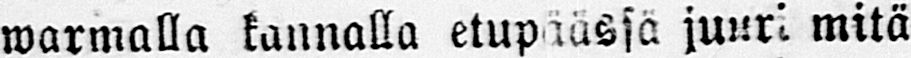warmalla kannalla etupäässä juuri mitä
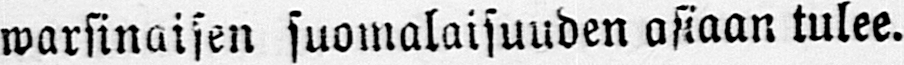warsinaisen suomalaisuuden asiaan tulee.
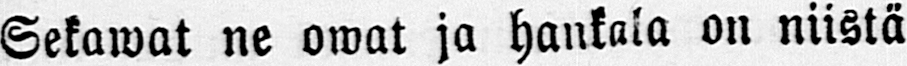Sekawat ne owat ja hankala on niistä
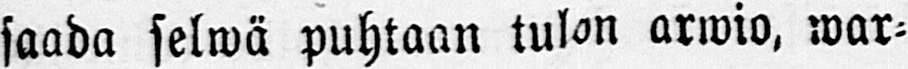saada selwä puhtaan tulon arwio, war-
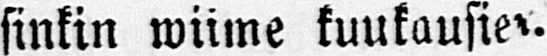sinkin wiime kuukausien.
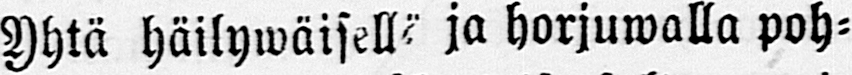Yhtä häilywäisell ja horjuwalla poh-
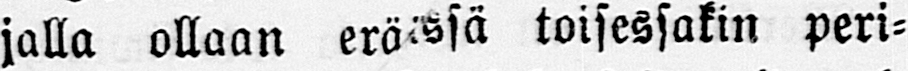jalla ollaan eränsä toisessakin peri-
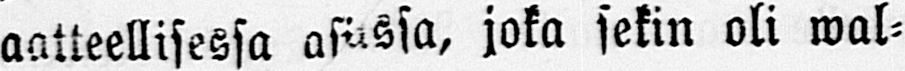aatteellisessa asiassa, joka sekin oli wal-
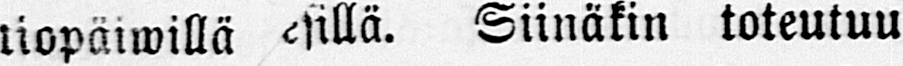tiopäiwillä. Siinäkin toteutuu
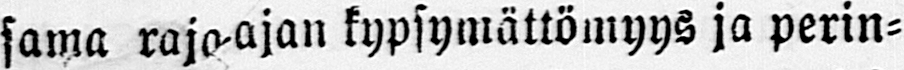sama raja-ajan kypsymättömyys ja perin-
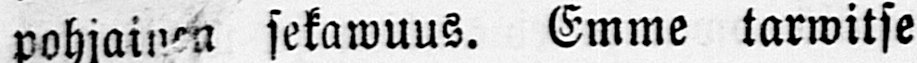pohjainen sekawuus. Emme tarwitse
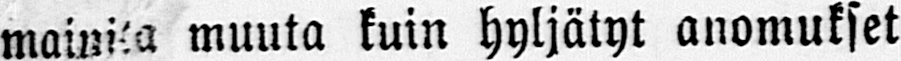mainita muuta kuin hyljätyt anomukset
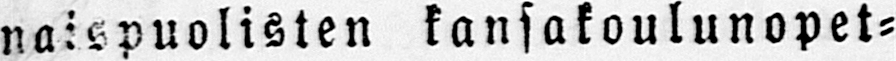naispuolisten kansakoulunopet-
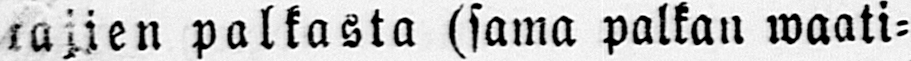tajien palkasta (sama palkan waati-
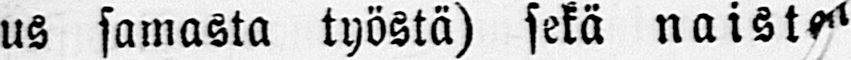mus samasta työstä) sekä naisten
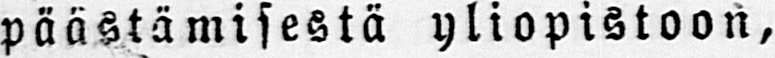päästämisestä yliopistoon, nin
